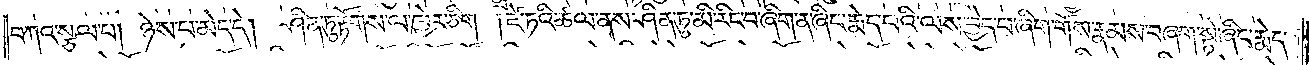བཀའ་སྩལ་པ། ཉེས་པ་མེད་དེ། ཤིན་ཏུ་རྟོགས་ལ་ཁྱེར་ཅིག །ཛེ་ཏའི་ཚལ་ནས་ཤིན་ཏུ་མི་རིང་བ་ཞིག་ན་ཞིང་རྨེད་པའི་ལས་བྱེད་པ་ཞིག་གོས་རྣམས་བཞག་སྟེ་ཞིང་རྨེད་
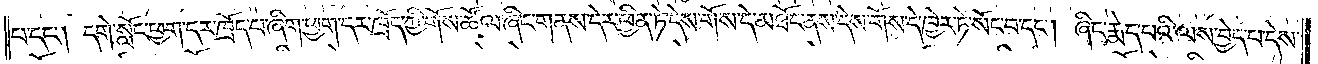པ་དང༌། དགེ་སློང་ཕྱག་དར་ཁྲོད་པ་ཞིག་ཕྱག་དར་ཁྲོད་ཀྱི་གོས་ཚོལ་ཞིང་གནས་དེར་ཕྱིན་ཏེ་དེས་གོས་དེ་མཐོང་ནས་དེས་གོས་དེ་ཁྱེར་ཏེ་སོང་བ་དང༌། ཞིང་རྨེད་པའི་ལས་བྱེད་པ་དེས་
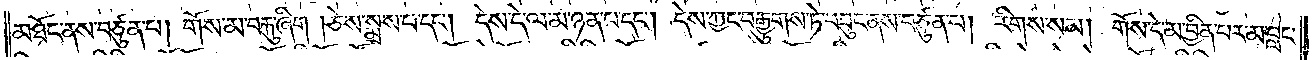མཐོང་ནས་བཙུན་པ། གོས་མ་བརྐུ་ཞིག །ཅེས་སྨྲས་པ་དང༌། དེས་དེ་ལ་མ་ཉན་པ་དང༌། དེས་ཀྱང་བརྒྱུགས་ཏེ་བཟུང་ནས་བཙུན་པ། རིགས་སམ། གོས་དེ་མ་བྱིན་པར་མ་བླང་
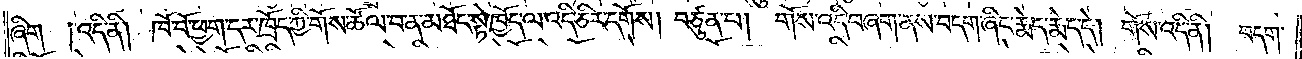ཞིག །འདི་ནི། ཁོ་བོ་ཕྱག་དར་ཁྲོད་ཀྱི་གོས་ཚོལ་བ་ན་མཐོང་སྟེ་ཁྱོད་ལ་འདི་ཅིར་དགོས། བཙུན་པ། གོས་འདི་བཞག་ནས་བདག་ཞིང་རྨེད་རྨེད་དེ། གོས་འདི་ནི། བདག་
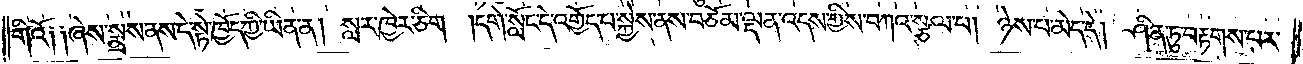གིའོ༑ ༑ཞེས་སྨྲས་ནས་དེ་སྟེ་ཁྱོད་ཀྱི་ཡིན་ན། སླར་ཁྱེར་ཅིག །དགེ་སློང་དེ་འགྱོད་པ་སྐྱེས་ནས་བཅོམ་ལྡན་འདས་ཀྱིས་བཀའ་སྩལ་པ། ཉེས་པ་མེད་དེ། ཤིན་ཏུ་བརྟགས་པར་
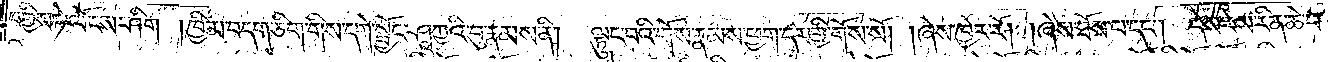བགྱིས་ཏེ་ལོངས་ཤིག །ཁྱིམ་བདག་ཅིག་གིས་དགེ་སྦྱོང་ཤཱཀྱའི་བུ་རྣམས་ནི། ལྟུང་བའི་གོས་རྣམས་ཕྱར་དར་གྱི་གོས་སོ། །ཞེས་ཁྱེར་རོ། །ཞེས་ཐོས་པ་དང༌། དེས་རེས་རིན་ཆེ་བ་
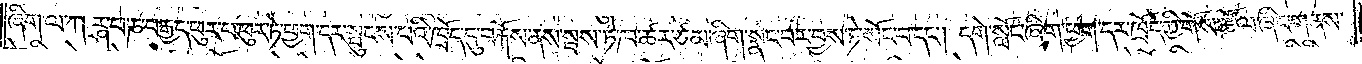ཞིག་ལ་ཀརྴ་པ་ཎ་བརྒྱད་ཕུར་པ་ཕུར་ཏེ་ཕྱག་དར་སྤུངས་པའི་ཁྲོད་དུ་བརྐོས་ནས་སྦས་ཏེ་ཁ་ཚར་ཙམ་ཞིག་སྣང་བར་བྱས་ཏེ་སོང་བ་དང༌། དགེ་སློང་ཞིག་ཕྱག་དར་ཁྲོད་ཀྱི་གོས་ཚོལ་ཞིང་གནས་
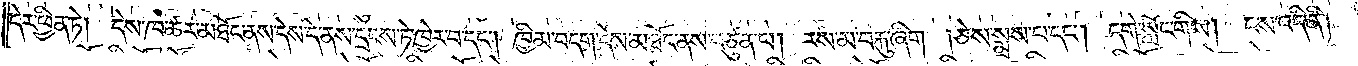དེར་ཕྱིན་ཏེ། དེས་ཁ་ཚར་མཐོང་ནས་དེས་དེ་ནས་དྲངས་ཏེ་ཁྱེར་བ་དང༌། ཁྱིམ་བདག་དེས་མཐོང་ནས་བཙུན་པ། རས་མ་བརྐུ་ཞིག །ཅེས་སྨྲས་པ་དང༌། དགེ་སློང་གིས། ངས་འདི་ནི།
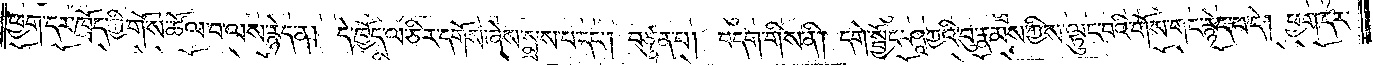ཕྱག་དར་ཁྲོད་ཀྱི་གོས་ཚོལ་བ་ལས་རྙེད་ན། དེ་ཁྱོད་ལ་ཅིར་དགོས་ཞེས་སྨྲས་པ་དང༌། བཙུན་པ། བདག་གིས་ནི། དགེ་སྦྱོང་ཤཱཀྱའི་བུ་རྣམས་ཀྱིས་ལྟུང་བའི་གོས་གང་རྙེད་པ་དེ། ཕྱག་དར་
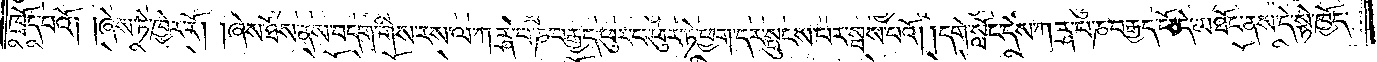ཁྲོད་པའོ༑ །ཞེས་ཏེ་ཁྱེར་རོ། །ཞེས་ཐོས་ནས་བདག་གིས་རས་ལ་ཀརྴ་པ་ཎ་བརྒྱད་ཕུར་པ་ཕུར་ཏེ་ཕྱག་དར་སྤུངས་པར་སྦས་པའོ། །དགེ་སློང་དེས་ཀརྴ་པ་ཎ་བརྒྱད་པོ་དེ་མཐོང་ནས་དེ་སྟེ་ཁྱོད་
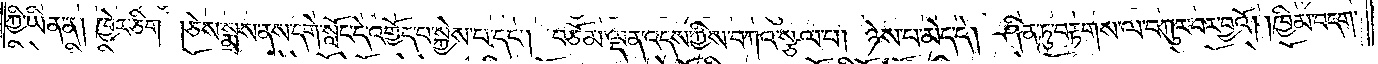ཀྱི་ཡིན་ན། ཁྱེར་ཅིག །ཅེས་སྨྲས་ནས་དགེ་སློང་དེ་འགྱོད་པ་སྐྱེས་པ་དང༌། བཅོམ་ལྡན་འདས་ཀྱིས་བཀའ་སྩལ་པ། ཉེས་པ་མེད་དེ། ཤིན་ཏུ་བརྟགས་ལ་བཀུར་བར་བྱའོ། །ཁྱིམ་བདག་
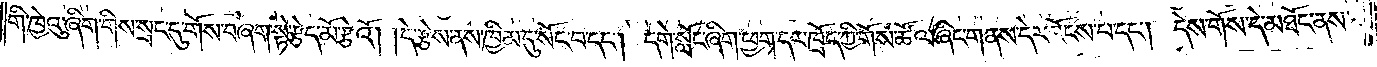གི་ཁྱེའུ་ཞིག་གིས་སྲང་དུ་གོས་བཞག་སྟེ་རྩེད་མོ་རྩེའོ། །དེ་རྩེས་ནས་ཁྱིམ་དུ་སོང་བ་དང༌། དགེ་སློང་ཞིག་ཕྱག་དར་ཁྲོད་ཀྱི་གོས་ཚོལ་ཞིང་གནས་དེར་འོངས་པ་དང༌། དེས་གོས་དེ་མཐོང་ནས་
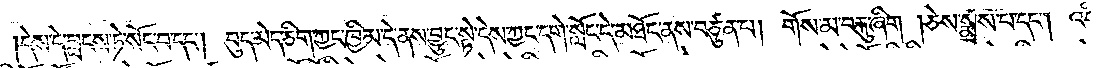དེས་དེ་བླངས་ཏེ་སོང་བ་དང༌། བུད་མེད་ཅིག་ཀྱང་ཁྱིམ་དེ་ནས་བྱུང་སྟེ་དེས་ཀྱང་དགེ་སློང་དེ་མཐོང་ནས་བཙུན་པ། གོས་མ་བརྐུ་ཞིག །ཅེས་སྨྲས་པ་དང༌། འདི་
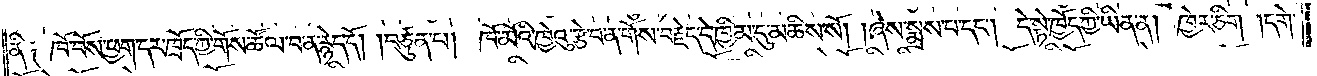ནི༑ ཁོ་བོས་ཕྱག་དར་ཁྲོད་ཀྱི་གོས་ཚོལ་བ་ན་རྙེད་དོ། །བཙུན་པ། ཁོ་མོའི་ཁྱེའུ་རྩེ་བ་ན་གོས་བརྗེད་དེ་ཁྱིམ་དུ་མཆིས་སོ། །ཞེས་སྨྲས་པ་དང༌། དེ་སྟེ་ཁྱོད་ཀྱི་ཡིན་ན། ཁྱེར་ཅིག །དགེ་
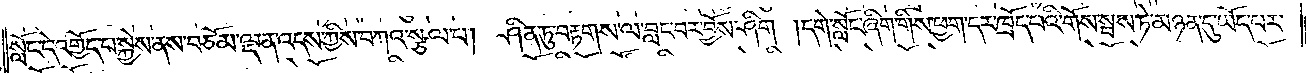སློང་དེ་འགྱོད་པ་སྐྱེས་ནས་བཅོམ་ལྡན་འདས་ཀྱིས་བཀའ་སྩལ་པ། ཤིན་ཏུ་བརྟགས་ལ་བླང་བར་བྱོས་ཤིག །དགེ་སློང་ཞིག་གིས་ཕྱག་དར་ཁྲོད་པའི་གོས་སྦས་ཏེ་མཉན་དུ་ཡོད་པར་
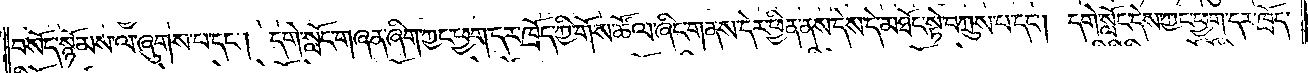བསོད་སྙོམས་ལ་ཞུགས་པ་དང༌། དགེ་སློང་གཞན་ཞིག་ཀྱང་ཕྱག་དར་ཁྲོད་ཀྱི་གོས་ཚོལ་ཞིང་གནས་དེར་ཕྱིན་ནས་དེས་དེ་མཐོང་སྟེ་བཀྲུས་པ་དང༌། དགེ་སློང་དེས་ཀྱང་ཕྱག་དར་ཁྲོད་
